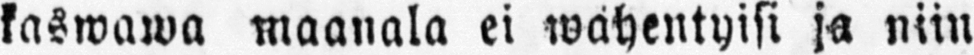kaswawa maanala ei wähentyisi ja niin
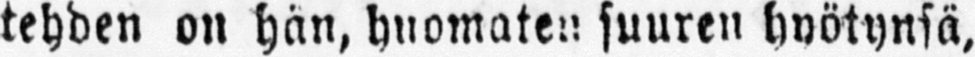tehden on hän, huomaten suuren hyötynsä,
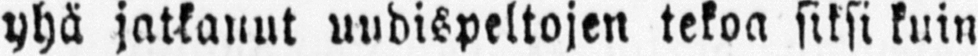yhä jatkanut uudispeltojen tekoa siksi kuin
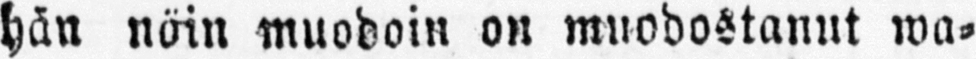hän näin muodoin on muodostanut wa-
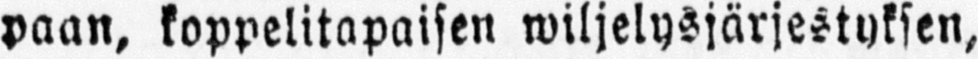paan, koppelitapaisen wiljelysjärjestyksen,
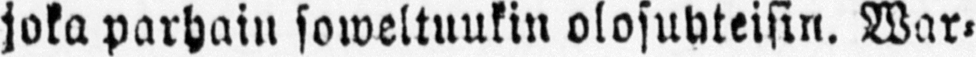joka parhain soweltuukin olosuhteisin. War-
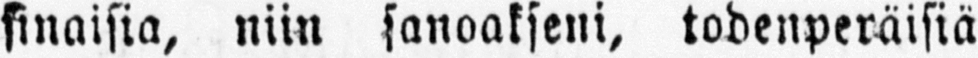sinaisia, niin sanoakseni, todenperäisiä
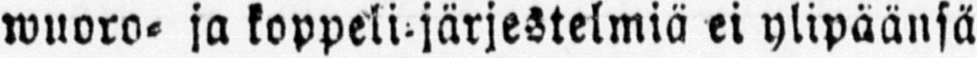wuoro- ja koppeli-järjestelmiä ei ylipäänsä
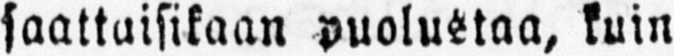saattaisikaan puolustaa, kuin useammassa
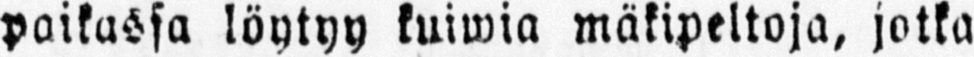paikassa löytyy kuiwia mäkipeltoja, jotka
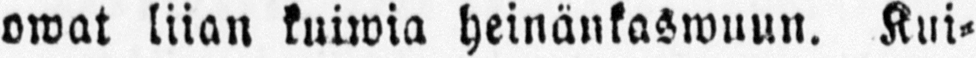owat liian kuiwia heinänkaswuun. Kui-
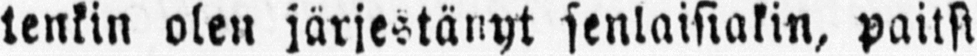tenkin olen järjestänyt senlaisiakin, paitsi
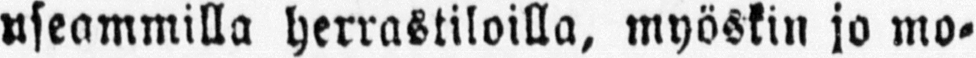useammilla herrastiloilla, myöskin jo mo-
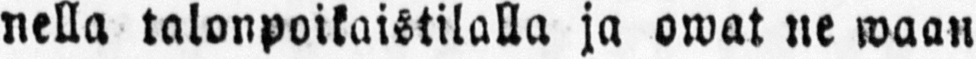nella talonpoikaistilalla ja owat ne waan
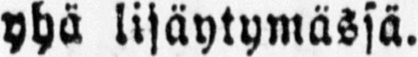yhä lisäytymässä.
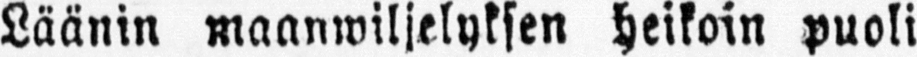Läänin maanwiljelyksen heikoin puoli
